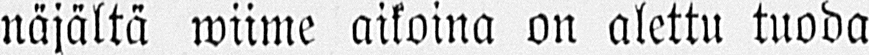näjältä wiime aikoina on alettu tuoda
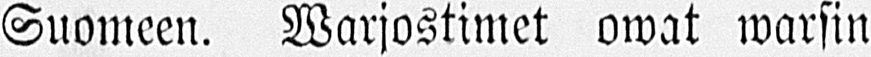Suomeen. Warjostimet owat warsin
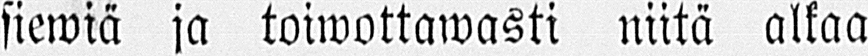siewiä ja toiwottawasti niitä alkaa
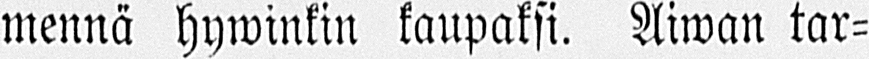mennä hywnikin kaupaksi. Aiwan tar-
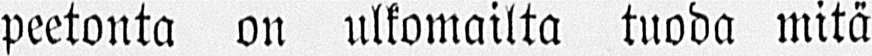peetonta on ulkomailta tuoda mitä
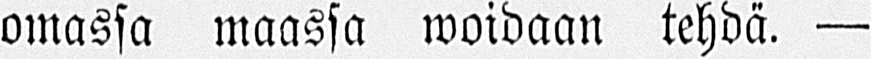omassa maassa woidaan tehdä. —
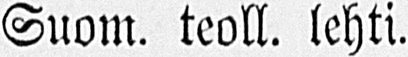Suom. teoll. lehti.
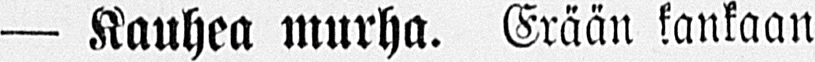— Kauhea murha. Erään kankaan
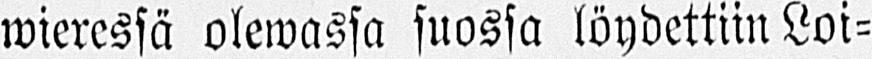wieressä olewassa suossa löydettiin Loi-
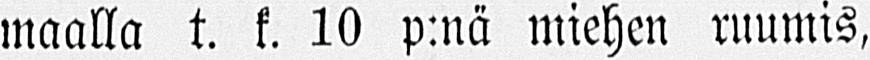maalla t. k. 10 p:nä miehen ruumis,
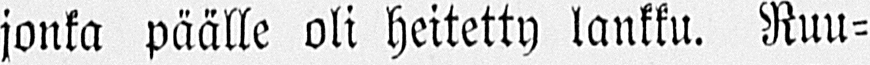jonka päälle oli heitetty lankku. Ruu-
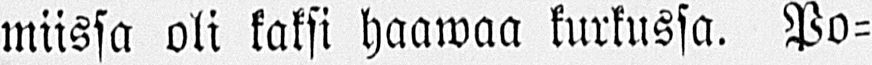miissa oli kaksi haawaa kurkussa. Po-
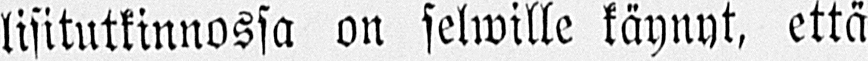lisitutkinnossa on selwille käynyt, että
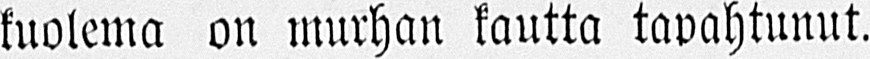kuolema on murhan kautta tapahtunut.
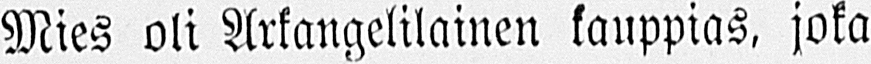Mies oli Arkangelilainen kauppias, joka
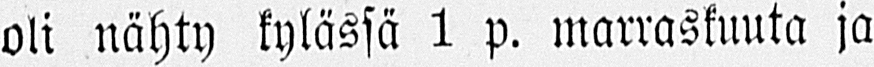oli nähty kylässä 1 p. marraskuuta ja
